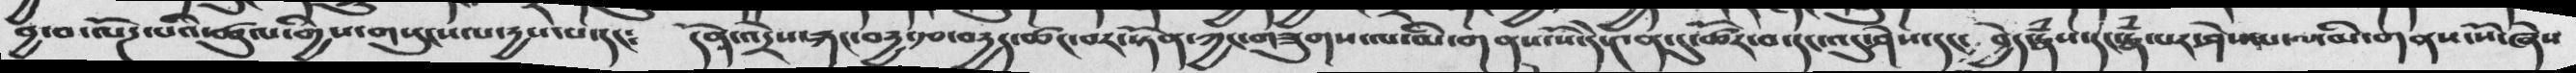བྱ་བ་ལོཌ་པའི་ཚུལ་གྱིས་གསུངས་པ་དྱས་པ་དང༴  དོན་འདྲེས་རྐང་བདྱ་རྩ་བདྱད་ཚང་བར་སྟོན་ཀྱང་གཟུགས་ལ་མི་གནས་སོ་དེ་༤ན་དུ་ཚོར་བ་དང་འདུ་ཤེས་དང བྱེད་རྣཾས་དང་རྣཾ་པར་ཤེས་པ་ལ་མི་གནས་སོ་ཞེས
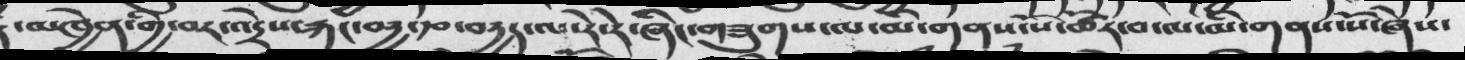་མཁྱེན་གྱི་བར་འདྲེས་རྐང་བདྱ་རྩ་བདྱད་ལ་རེ་རེ་ཞིང་གཟུགས་ལ་མི་གནས་སོ་ཚོར་བ་ལ་མི་གནས་སོ་ཞེས༴
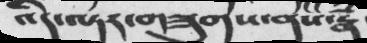འདི་ལྟར་གཟུགས་ནས་རྣཾ
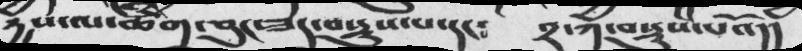དྱས་ལ་ཚིག་ཅུང་ཟད་བསྡུས་པ་དང༴  ༢་ཀ་བསྡུས་པའོ།།
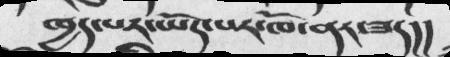ཁྱད་པར་ཡོད་པར་ཁོ་ནར་ཟད།།
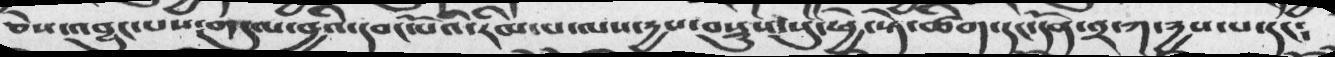ཅེས་འབྱུང་པས༴གདུལ་བྱའི་དབང་པོའི་རིམ་པ་ལས་དྱས་བསྡུས་སུ་ཕྱེ་སྟེ་ཚིག་དང་དོན་༢་ཀ་དྱས་པ་དང༴
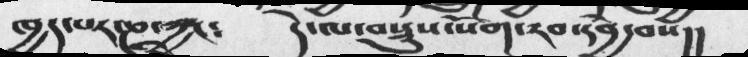ཁྱད་པར་ཎ་ཀྱང༴  དེ་ལ་བསྡུས་སོག་རབ་དབྱེ་བས།།
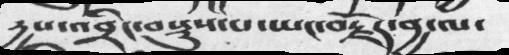དྱས་འབྲིང་བསྡུས་པ་ཡང་བརྗོད་བྱ་ལ་
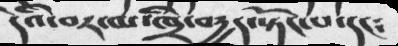དེའི་བར་མ་ཁྲི་བདྱད་སྟོང་པ་དང༴
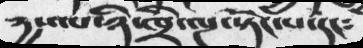དྱས་པ་ཉི་ཁྲི་ལྔ་སྟོང་པ་དང༴
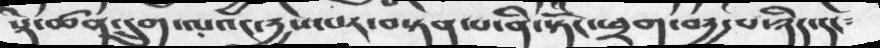སྡེ་ཚན་དྲུག་ལའང་དྱས་པར་བསྟན་པ་ནི་སྟོང་ཕྲག་བདྱ་པ་ཉིད་དང༴
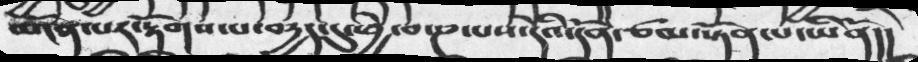མངོན་པར་རྟོགས་པ་བདྱད་དུ་ཕྱེ་བ་ཎ་པས་དེའི་དོན་ཙམ་སྟོན་པ་ཡིནོ།།
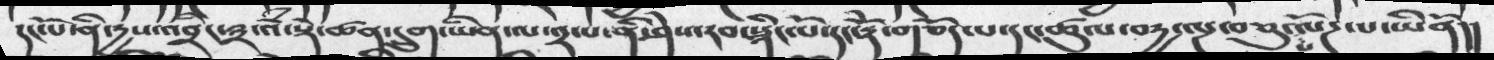དང་པོ་ནི་དྱས་འབྲིང་༣་འཾ་སྡེ་ཚན་དྲུག་ཡིན་ལ་༢་པ་ནི་ཤེས་རབ་སྙིང་པོ་ད་རྡོེ་གཅོད་པ་དང་ཚུལ་བདྱ་ལྔ་བཅུ་པ་ལོཌ་པ་ཡིནོ།།
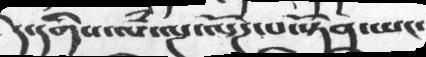དེ་དགིས་ལཾ་ལྔ་ལོཌ་པ་སྟོན་ཡང་
